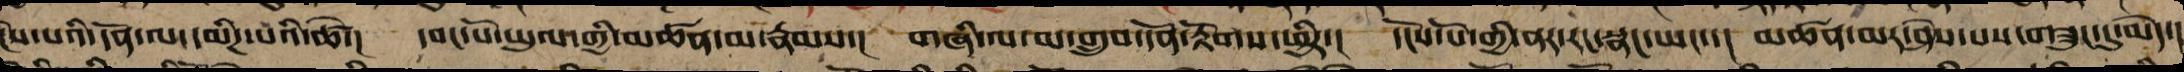ངེས་པའི་དོན་ལ་དམིཌ་པའི་ཚེ་། དབང་པོ་ཡུལ་གྱི་མཚན་མ་རྣམས་། གཞི་ལ་མ་གྲུབ་དོན་རྟོགས་ཕྱིར་། དངོས་པོ་གྱི་ནར་རང་སྣང་ཡང་་། མཚན་མར་ཤེས་པས་གཟུང་དུ་མེད་།
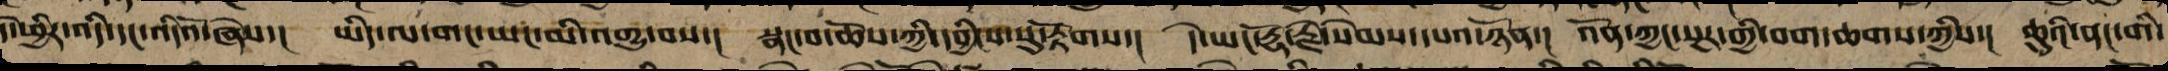དེ་ཕྱིར་འདི་དང་འདིའོ་ཞེས་། ཡིད་ལ་གང་ཡང་མི་འགྱུ་བས་། སྣང་བ་ཆོས་ཀྱི་དབྱིངས་སུ་རྟོགས་། དེ་ཡང་རྡོ་རྗེ་སེམས་དཔའ་ཉོན་། འོན་ཀྱང་སྔར་གྱི་བག་ཆགས་ཀྱིས་། ཆུའི་ནང་གི་
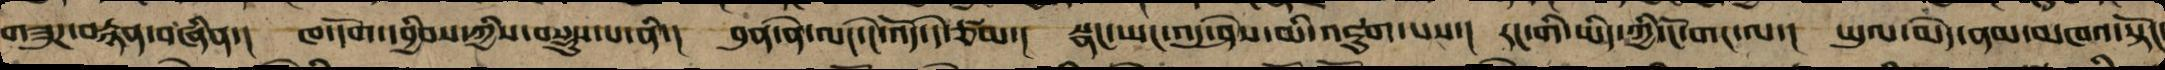གཟུཌ་བརྙན་བཞིན་། ཁ་དོག་དབྱིབས་ཀྱིས་བསྡུས་པ་ནི་། བུན་ནེ་ལོང་ངེ་འོད་དེ་ཙམ་། སྣང་ཡང་འདུ་ཤེས་མི་འཇུག་པས་། རང་གི་ཡིད་ཀྱི་ངོ་གང་ལ་། ཡུལ་མེད་ནམ་མཁའ་སྟོང་
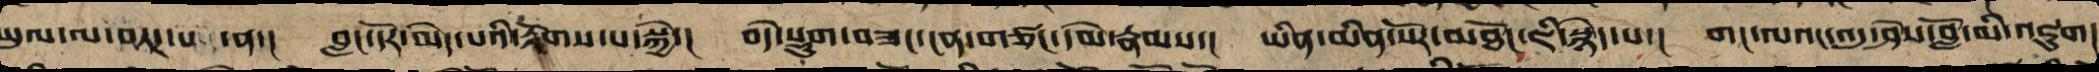ཡུལ་ལ་བཏཌ་པ་ན་། བླང་དོར་མེད་པའི་རྟོགས་པ་སྐྱེ་། བདེ་སྡུག་བཟང་ངན་གཙང་དམེ་རྣམས་། ཡིན་མིན་སོར་མཐོང་ཇི་སྙེད་པ་། གང་ལའང་འདུ་ཤེས་བློ་མི་འཇུག།
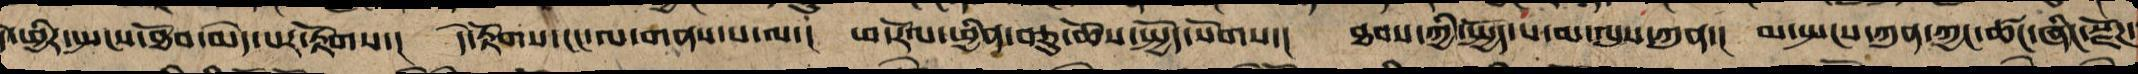དེ་ཕྱིར་སྤངས་ཐོབ་མེད་པར་རྟོགས་། དེ་རྟོགས་ངང་ལ་གནས་པ་ལ་། ཕ་རོལ་ཕྱིན་བཅུ་ཆོས་སྤྱོད་སོགས་། ཐབས་ཀྱི་སྤྱོད་པ་མ་ལུས་ཀུན་། མ་སྤངས་ཀུན་ཀྱང་ཚང་ཞིང་སྫོཌ་
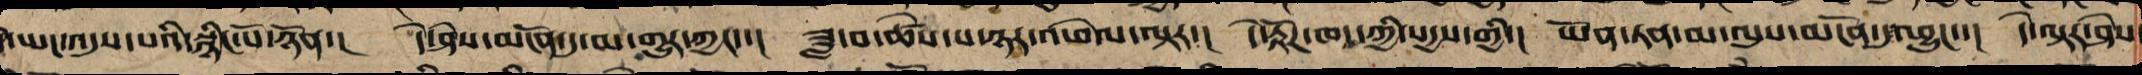དེ་ཡང་འདུས་པའི་སྙིང་པོ་ཉོན་། དེ་ཤེས་མངོན་དུ་མ་གྱུར་ཀྱང་་། ཟླ་བ་ཚེས་པ་ཉར་འཕེལ་ལྟར་། དེ་རྟོཌ་ཁད་ཀྱིས་སདྱས་ཀྱི་། ཡོན་ཏན་མ་ལུས་མངོན་དུ་འབྱུང་་། དེ་ལྟར་ཤེས
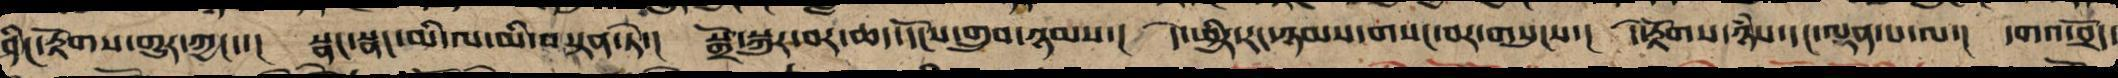ཤིང་རྟོགས་གྱུར་ཀྱང་་། སྣང་སྣང་མི་ལ་མི་བསྟན་ཏེ་། སྒྲོ་སྐུར་བར་ཆད་དངོས་གྲུབ་ཉམས་། དེ་ཕྱིར་རང་ཉམས་གསང་བར་གསུངས་། དེ་རྟོགས་ཉཾས་དང་ལྡན་པ་ལ་། དགའ་བྲོད་
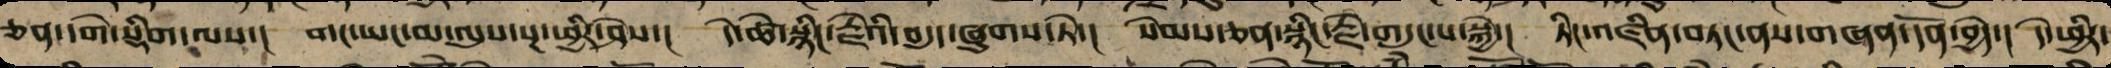ཅན་དགེ་སྡིག་ལས་། གང་ཡང་མ་ལུས་སྔ་ཕྱི་ཤེས་། དེ་ཚེ་སྙིང་རྗེའི་བདུད་ཞུགས་ཏེ་། སེམས་ཅན་སྙིང་རྗེའི་གདུང་བ་སྐྱེ་། ཏིང་འཛིན་བཏང་ནས་གཞན་དོན་བྱེད་། དེ་ཕྱིར་
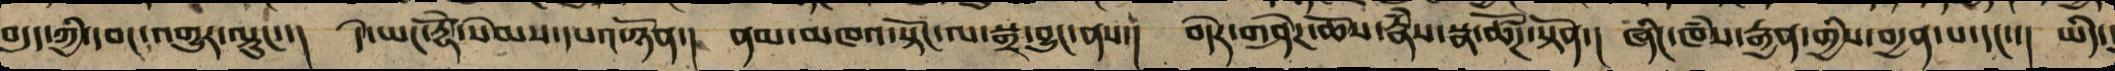བདུད་ཀྱི་དབང་འགྱུར་ལྟུང་་། དེ་ཡང་རྡོེ་སེམས་དཔའ་ཉོན་། ནམ་མཁའ་སྟོང་ལས་སྒྲ་བྱུང་ནས་། བདེར་གཤེཌ་ཆོས་རྣཾས་སྣ་ཚོཌ་སྟོན་། ཞིང་ཁཾས་རྒྱན་གྱིས་བདྱན་པ་དང་་། ཡིད་དུ
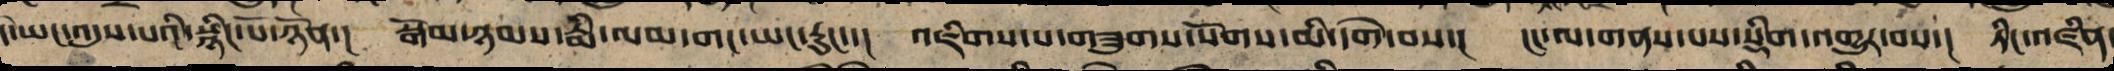དེ་ཡང་འདུས་པའི་སྙིང་པོ་ཉོན་། སྒོམ་ཉམས་རྨི་ལམ་གང་ཡང་རུང་་། འཇིགས་པའི་གཟུགས་སོགས་མི་དགེ་བས་། ངང་ལ་གནས་པར་སྡིག་འགྱུར་བས་། ཏིང་འཛིན
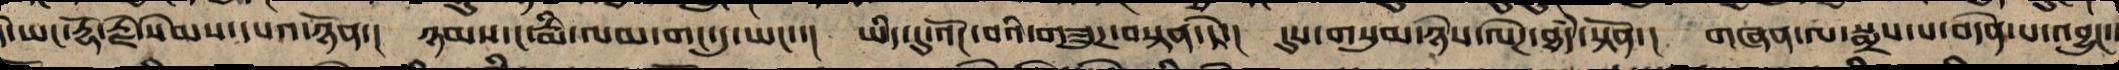དེ་ཡང་རྡོ་རྗེ་སེམས་དཔའ་ཉོན་། ཉམས་དང་རྨི་ལམ་གང་དུ་ཡང་་། ཡིད་དུ་འོང་བའི་གཟུགས་བསྟན་ཏེ་། དུས་གསུམ་ཉེས་ལེཌ་ཐཾད་སྟོན་། གཞན་ལ་སྨྲས་པ་བདེན་པར་འབྱུང་་
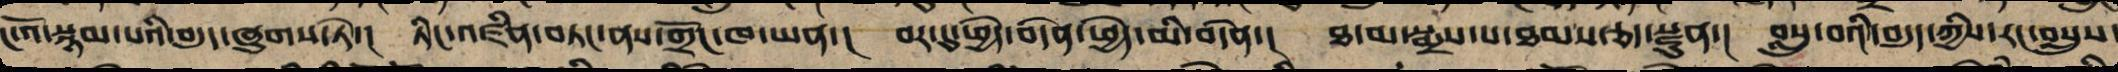ང་འོ་སྙམ་པའི་བདུད་ཞུགས་ཏེ་། ཏིང་འཛིན་བཏང་ནས་གྲོང་ཁ་ཡན་། བར་དུ་ཕྱེད་བདེན་ཕྱེད་མི་བདེན་། ཐ་མ་སྨྲས་པ་ཐམས་ཅད་སྫུན་། བསླུ་བའི་བདུད་ཀྱིས་རང་བསླུས
